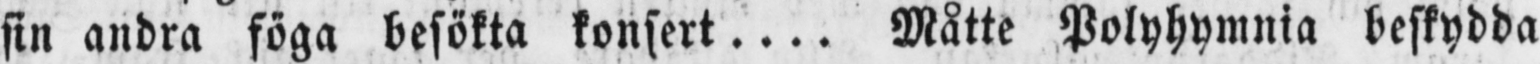sin andra föga besökta konsert .... Måtte Polyhymnia beskydda
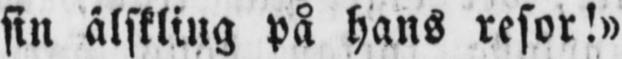sin älskling på hans resor!»
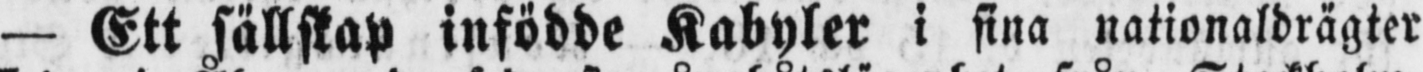— Ett sällskap infödde Kabyler i sina nationaldrägter
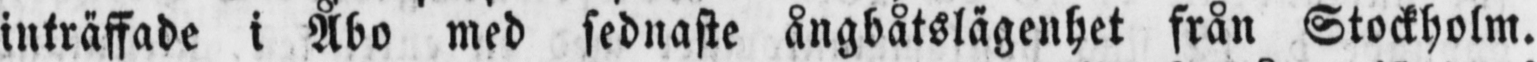inträffade i Åbo med sednaste ångbåtslägenhet från Stockholm.
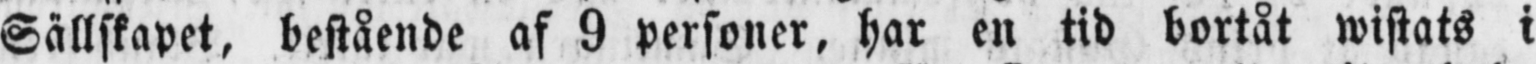Sällskapet, bestående af 9 personer, har en tid bortåt wistats i
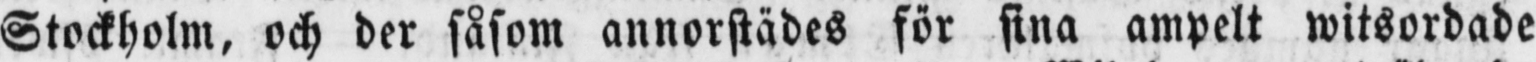Stockholm, och der såsom annorstädes för sina ampelt witsordade
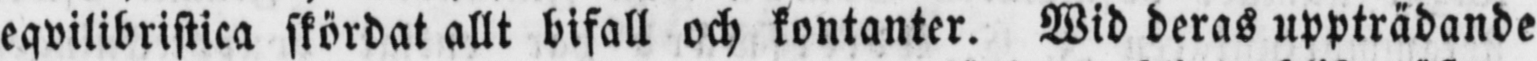eqvilibristica skördat allt bifall och kontanter. Wid deras uppträdande
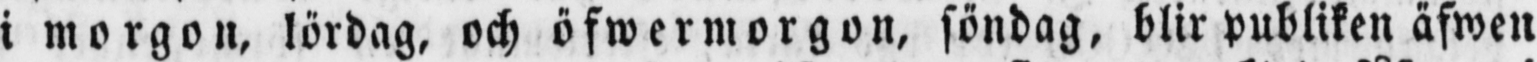i morgon, lördag, och öfwermorgon, söndag, blir publiken äfwen
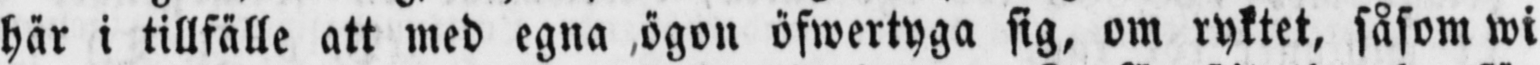här i tillfälle att med egna ögon öfwertyga sig, om ryktet, såsom wi
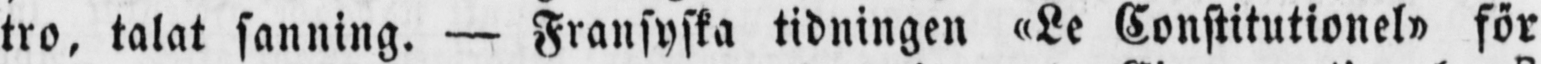tro, talat sanning. — Fransyska tidningen «Le Constitutionel» för
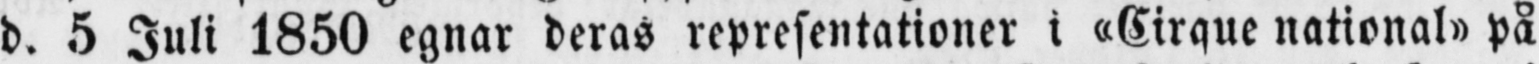d. 5 Juli 1850 egnar deras representationer i »Cirque national» på
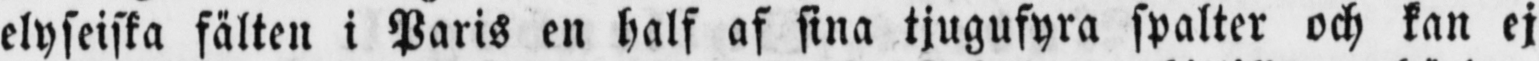elyseiska fälten i Paris en half af sina tjugufyra spalter och kan ej
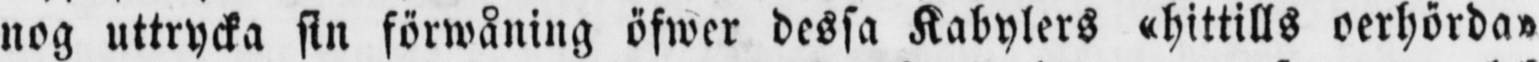nog uttrycka sin förwåning öfwer dessa Kabylers »hittills oerhörda»
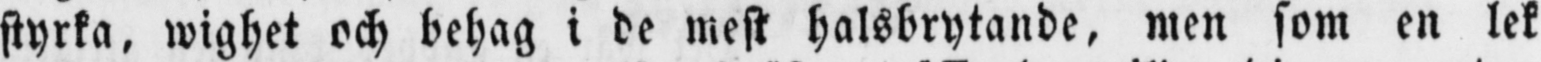styrka, wighet och behag i de mest halsbrytande, men som en lek
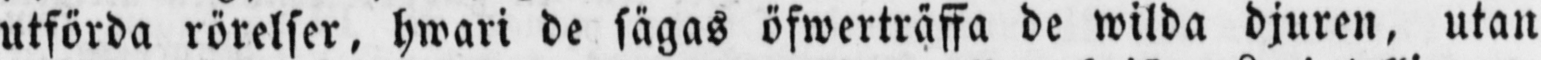utförda rörelser, hwari de sägas öfwerträffa de wilda djuren, utan
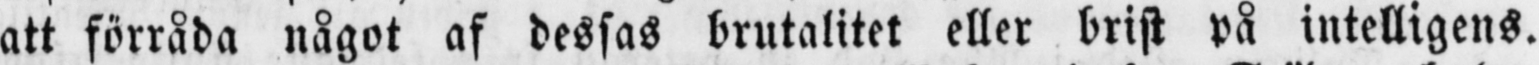att förråda något af dessas brutalitet eller brist på intelligens.
